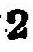2
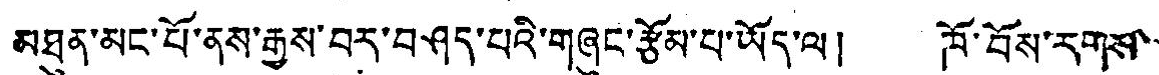མཐུན་མང་པོ་ནས་རྒྱས་བར་བཤད་པའི་གཞུང་རྩོམ་པ་ཡོད་ལ། ཁོ་བོས་རགས་
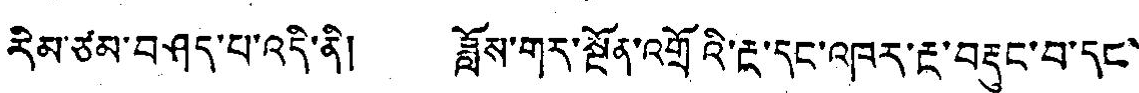རིམ་ཙམ་བཤད་པ་འདི་ནི། ཟློས་གར་སྔོན་འགྲོའི་རྔ་དང་འཁར་རྔ་བརྡུང་བ་དང་།
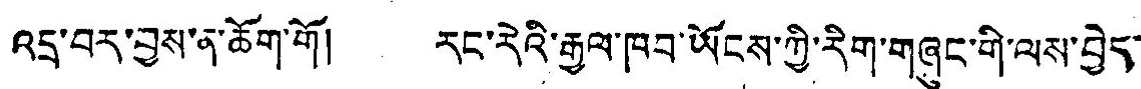འདྲ་བར་བྱས་ན་ཆོག་གོ། རང་རེའི་རྒྱལ་ཁབ་ཡོངས་ཀྱི་རིག་གཞུང་གི་ལས་བྱེད་
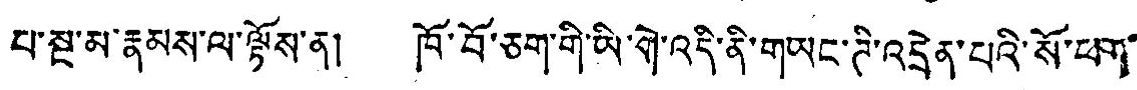པ་སྔ་མ་རྣམས་ལ་ལྟོས་ན། ཁོ་བོ་ཅག་གི་ཡི་གེ་འདི་ནི་གཡང་ཊི་འདྲེན་པའི་སོ་ཕག་
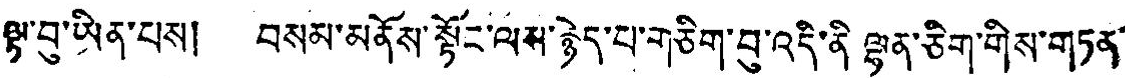ལྟ་བུ་ཡིན་པས། བསམ་མནོས་སྟོང་ལས་རྙེད་པ་གཅིག་བུ་འདི་ནི་ལྷན་ཅིག་གིས་གཏན་
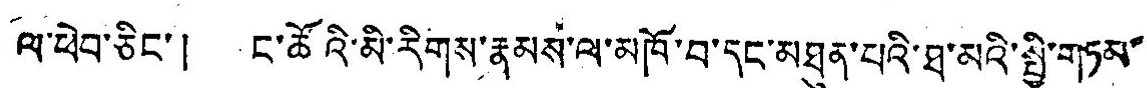ལ་ཕེབ་ཅིང་། ང་ཚོའི་མི་རིགས་རྣམས་ལ་མཁོ་བ་དང་མཐུན་པའི་ཐ་མའི་སྤྱི་གཏམ་
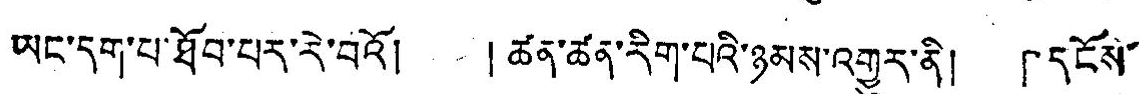ཡང་དག་པ་ཐོབ་པར་རེ་བའོ། །ཚན་ཚན་རིག་པའི་ཉམས་འགྱུར་ནི། 「དངོས་
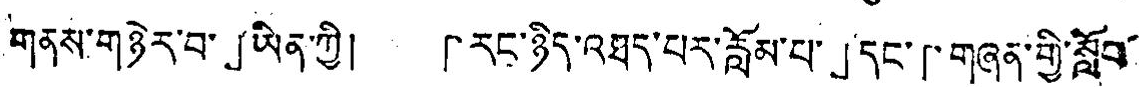གནས་གཉེར་བ་」ཡིན་ཀྱི། 「རང་ཉིད་འཐད་པར་རློམ་པ་」དང་「གཞན་གྱི་སློབ་
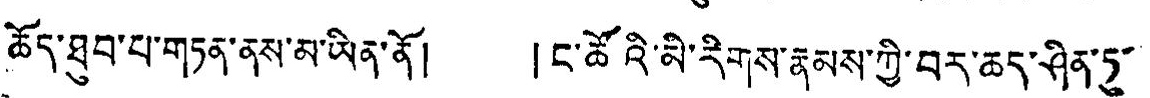ཆོད་ཐུབ་པ་གཏན་ནས་མ་ཡིན་ནོ། །ང་ཚོའི་མི་རིགས་རྣམས་ཀྱི་བར་ཆད་ཤིན་ཏུ་
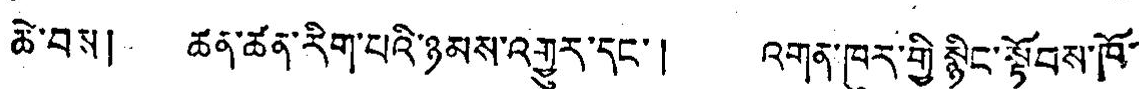ཆེ་བས། ཚན་ཚན་རིག་པའི་ཉམས་འགྱུར་དང་། འགན་ཁུར་གྱི་སྙིང་སྟོབས་ཁོ་
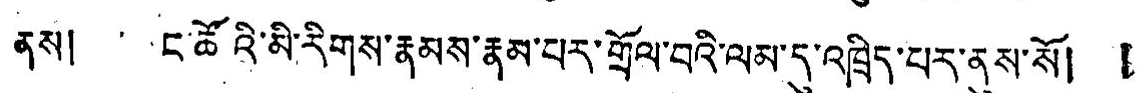ནས། ང་ཚོའི་མི་རིགས་རྣམས་རྣམ་པར་གྲོལ་བའི་ལམ་དུ་འཁྲིད་པར་ནས་སོ། །
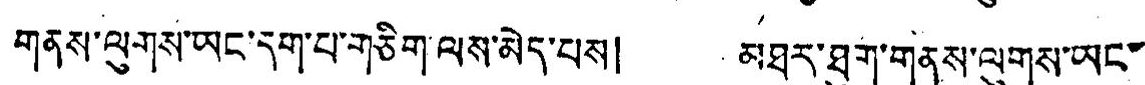གནས་ལུགས་ཡང་དག་པ་གཅིག་ལས་མེད་པས། མཐར་ཐག་གནས་ལུགས་ཡང་
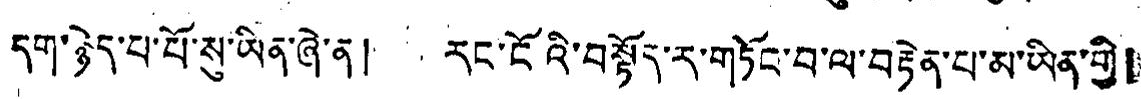དག་ཉེད་པ་པོ་སུ་ཡིན་ཞེ་ན། རང་ངོའི་བསྟོད་ར་གཏོང་བ་ལ་བརྟེན་པ་མ་ཡིན་གྱི།
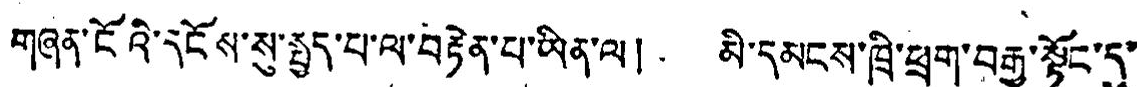གཞན་ངོའི་དངོས་སུ་སྤྱད་པ་ལ་བརྟེན་པ་ཡིན་ལ། མི་དམངས་ཁྲི་ཕྲུག་བརྒྱ་སྟོང་དུ་
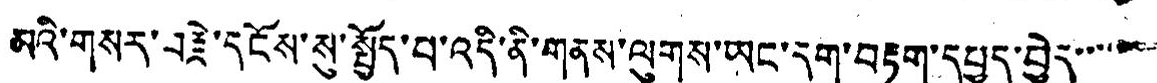མའི་གསར་བརྗེ་དངོས་སུ་སྤྱོད་པ་འདི་ནི་གནས་ལུགས་ཡང་དག་བརྟག་དཔྱད་བྱེད་་་་་་
